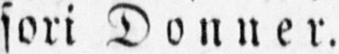sori Donner.
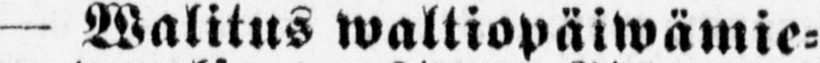— Walitus waltiopäiwämie-
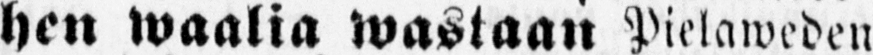hen waalia wastaan Pielaweden
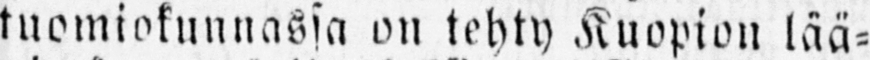tuomiokunnassa on tehty Kuopion lää-
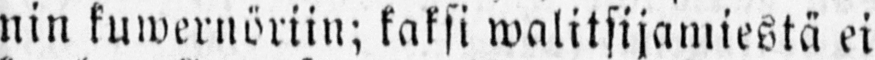nin kuwernöriin; kaksi walitsijamiestä ei
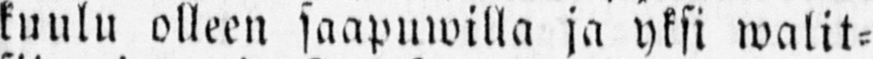kuulu olleen saapuwilla ja yksi walit-
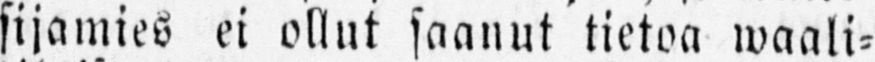sijamies ei ollut saanut tietoa waali-
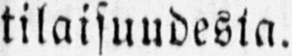tilaisuudesta.
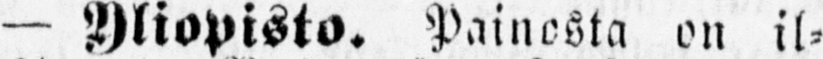— Yliopisto. Painosta on il-
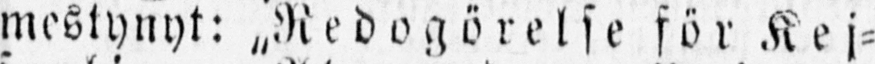mestynyt: „Red og örelse för Kej-
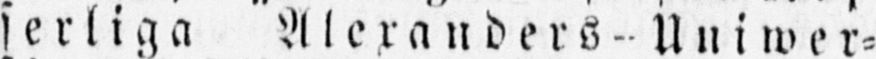serliga Alexanders - Uniwer-
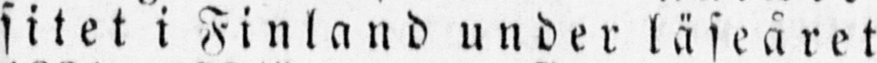sitet i Finland under läseåret
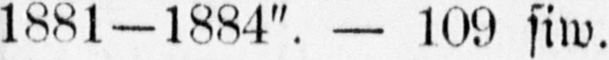1881-1884". — 109 siw.
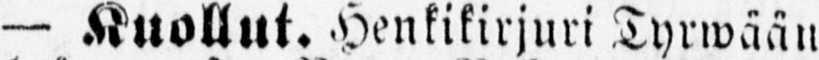— Kuollut. Henkikirjuri Tyrwään
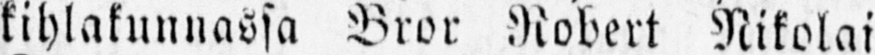kihlakunnassa Bror Robert Nikolai
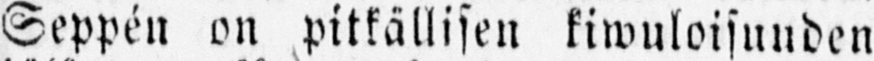Seppén on pitkällisen kiwuloisuuden
